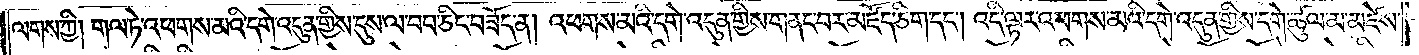ལགས་ཀྱི། གལ་ཏེ་འཕགས་མའི་དགེ་འདུན་གྱིས་དུས་ལ་བབ་ཅིང་བཟོད་ན། འཕགས་མའི་དགེ་འདུན་གྱིས་གནང་བར་མཛོད་ཅིག་དང༌། འདི་ལྟར་འཕགས་མའི་དགེ་འདུན་གྱིས་དགེ་ཚུལ་མ་མཛེས་
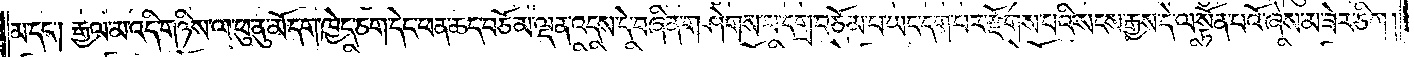མ་དང༌། རྒྱལ་མ་འདི་གཉིས་ལ་ཕུ་ནུ་མོ་དག་ཁྱེད་ཅག་དེང་ཕན་ཆད་བཅོམ་ལྡན་འདས་དེ་བཞིན་གཤེགས་པ་དགྲ་བཅོམ་པ་ཡང་དག་པར་རྫོགས་པའི་སངས་རྒྱས་དེ་ལ་སྟོན་པའོ་ཞེས་མ་ཟེར་ཅིག།
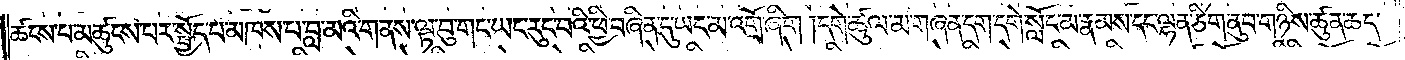ཚངས་པ་མཚུངས་པར་སྤྱོད་པ་མཁས་པ་བླ་མའི་གནས་ལྟ་བུ་གང་ཡང་རུང་བའི་ཕྱིར་བཞིན་དུ་ཡང་མ་འགྲོ་ཞིག །དགེ་ཚུལ་མ་གཞན་དག་དགེ་སློང་མ་རྣམས་དང་ལྷན་ཅིག་ནུབ་གཉིས་ཚུན་ཆད་
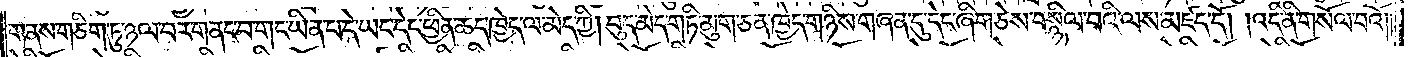གནས་གཅིག་ཏུ་ཉལ་བར་གནང་བ་གང་ཡིན་པ་དེ་ཡང་དེང་ཕྱིན་ཆད་ཁྱེད་ལ་མེད་ཀྱི། བུད་མེད་གཏི་མུག་ཅན་ཁྱེད་གཉིས་གཞན་དུ་དེང་ཞིག་ཅེས་བསྙིལ་བའི་ལས་མཛད་དོ། །འདི་ནི་གསོལ་བའོ༎
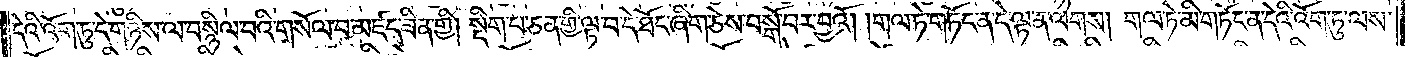དེའི་འོག་ཏུ་དེ་གཉིས་ལ་བསྙིལ་བའི་གསོལ་བ་མཛད་ཟིན་གྱི། སྡིག་པ་ཅན་གྱི་ལྟ་བ་དེ་ཐོང་ཞིག་ཅེས་བསྒོ་བར་བྱའོ། །གལ་ཏེ་གཏོང་ན་དེ་ལྟ་ན་ལགས། གལ་ཏེ་མི་གཏོང་ན་དེའི་འོག་ཏུ་ལས་
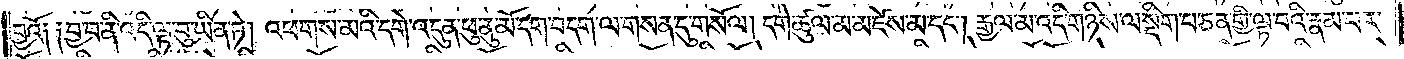བྱའོ༑ ༑བྱ་བ་ནི་འདི་ལྟ་བུ་ཡིན་ཏེ། འཕགས་མའི་དགེ་འདུན་ཕུ་ནུ་མོ་དག་བདག་ལ་གསན་དུ་གསོལ། དགེ་ཚུལ་མ་མཛེས་མ་དང༌། རྒྱལ་མ་འདི་གཉིས་ལ་སྡིག་པ་ཅན་གྱི་ལྟ་བའི་རྣམ་པར་
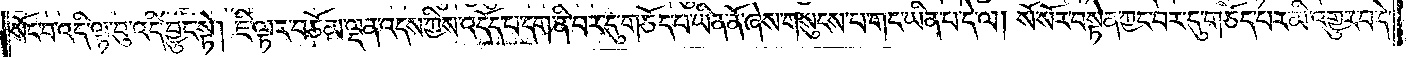སོང་བ་འདི་ལྟ་བུ་འདི་བྱུང་སྟེ། ཇི་ལྟར་བཅོམ་ལྡན་འདས་ཀྱིས་འདོད་པ་དག་ནི་བར་དུ་གཅོད་པ་ཡིན་ནོ་ཞེས་གསུངས་པ་གང་ཡིན་པ་དེ་ལ། སོ་སོར་བསྟེན་ཀྱང་བར་དུ་གཅོད་པར་མི་འགྱུར་བ་དེ་
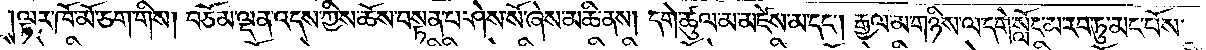ལྟར་ཁོ་མོ་ཅག་གིས། བཅོམ་ལྡན་འདས་ཀྱིས་ཆོས་བསྟན་པ་ཤེས་སོ་ཞེས་མཆི་ནས། དགེ་ཚུལ་མ་མཛེས་མ་དང༌། རྒྱལ་མ་གཉིས་ལ་དགེ་སློང་མ་རབ་ཏུ་མང་པོས་
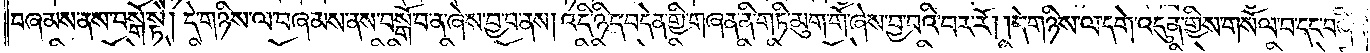བཞམས་ནས་བསྒོ་སྟེ། དེ་གཉིས་ལ་བཞམས་ནས་བསྒོ་བ་ན་ཞེས་བྱ་བ་ནས། འདི་ཉིད་བདེན་གྱི་གཞན་ནི་གཏི་མུག་གོ་ཞེས་བྱ་བའི་བར་རོ། །དེ་གཉིས་ལ་དགེ་འདུན་གྱིས་གསོལ་བ་དང་བཞིའི་
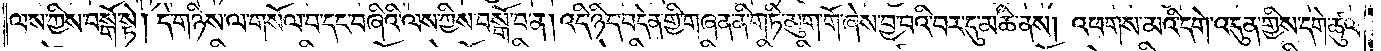ལས་ཀྱིས་བསྒོ་སྟེ། དེ་གཉིས་ལ་གསོལ་བ་དང་བཞིའི་ལས་ཀྱིས་བསྒོ་བ་ན། འདི་ཉིད་བདེན་གྱི་གཞན་ནི་གཏི་མུག་གོ་ཞེས་བྱ་བའི་བར་དུ་མཆི་ནས། འཕགས་མའི་དགེ་འདུན་གྱིས་དགེ་ཚུལ་
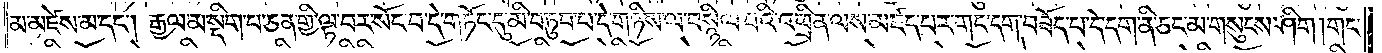མ་མཛེས་མ་དང༌། རྒྱལ་མ་སྡིག་པ་ཅན་གྱི་ལྟ་བར་སོང་བ་དེ་གཏོང་དུ་མི་བཏུབ་པ་དེ་གཉིས་ལ་བསྙིལ་བའི་འཕྲིན་ལས་མཛད་པ་གང་དག་བཟོད་པ་དེ་དག་ནི་ཅང་མ་གསུངས་ཤིག །གང་
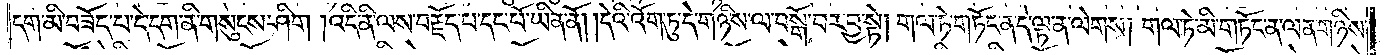དག་མི་བཟོད་པ་དེ་དག་ནི་གསུངས་ཤིག །འདི་ནི་ལས་བརྗོད་པ་དང་པོ་ཡིན་ནོ། །དེའི་འོག་ཏུ་དེ་གཉིས་ལ་བསྒོ་བར་བྱ་སྟེ། གལ་ཏེ་གཏོང་ན་དེ་ལྟ་ན་ལེགས། གལ་ཏེ་མི་གཏོང་ན་ལན་གཉིས་
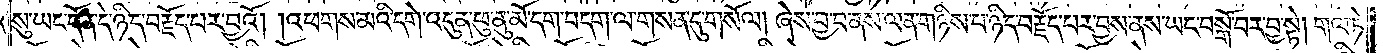སུ་ཡང་དོན་དེ་ཉིད་བརྗོད་པར་བྱའོ། །འཕགས་མའི་དགེ་འདུན་ཕུ་ནུ་མོ་དག་བདག་ལ་གསན་དུ་གསོལ། ཞེས་བྱ་བ་ནས་ལན་གཉིས་པ་ཉིད་བརྗོད་པར་བྱས་ནས་ཡང་བསྒོ་བར་བྱ་སྟེ། གལ་ཏེ་
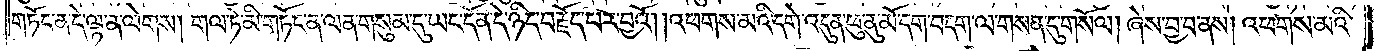གཏོང་ན་དེ་ལྟ་ན་ལེགས། གལ་ཏེ་མི་གཏོང་ན་ལན་གསུམ་དུ་ཡང་དོན་དེ་ཉིད་བརྗོད་པར་བྱའོ། །འཕགས་མའི་དགེ་འདུན་ཕུ་ནུ་མོ་དག་བདག་ལ་གསན་དུ་གསོལ། ཞེས་བྱ་བ་ནས། འཕགས་མའི་
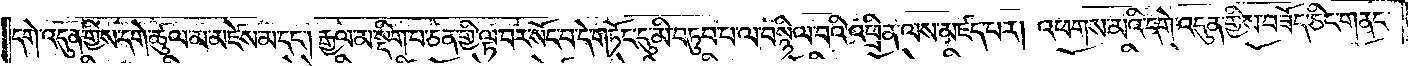དགེ་འདུན་གྱིས་དགེ་ཚུལ་མ་མཛེས་མ་དང༌། རྒྱལ་མ་སྡིག་པ་ཅན་གྱི་ལྟ་བར་སོང་བ་དེ་གཏོང་དུ་མི་བཏུབ་པ་ལ་བསྙིལ་བའི་འཕྲིན་ལས་མཛད་པར། འཕགས་མའི་དགེ་འདུན་གྱིས་བཟོད་ཅིང་གནང་
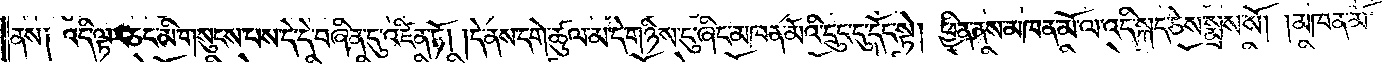ནས༑ འདི་ལྟར་ཅང་མི་གསུངས་པས་དེ་དེ་བཞིན་དུ་འཛིན་ཏོ། །དེ་ནས་དགེ་ཚུལ་མ་དེ་གཉིས་ངུ་ཞིང་མཁན་མོའི་དྲུང་དུ་དོང་སྟེ། ཕྱིན་ནས་མཁན་མོ་ལ་འདི་སྐད་ཅེས་སྨྲས་སོ། །མཁན་མོ་
